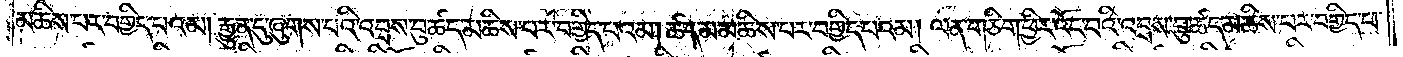མཆིས་པར་བགྱིད་པའམ། རྒྱུན་དུ་ཞུགས་པའི་འབྲས་བུ་ཚད་མཆིས་པར་བགྱིད་པའམ། ཚད་མ་མཆིས་པར་བགྱིད་པའམ། ལན་གཅིག་ཕྱིར་འོང་བའི་འབྲས་བུ་ཚད་མཆིས་པར་བགྱིད་པ་
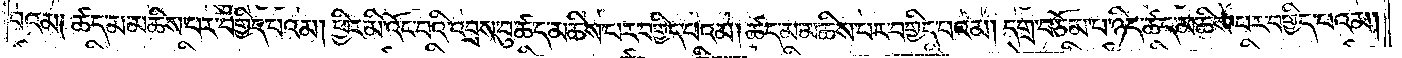པའམ༑ ཚད་མ་མཆིས་པར་བགྱིད་པའམ། ཕྱིར་མི་འོང་བའི་འབྲས་བུ་ཚད་མཆིས་པར་བགྱིད་པའམ། ཚད་མ་མཆིས་པར་བགྱིད་པའམ། དགྲ་བཅོམ་པ་ཉིད་ཚད་མཆིས་པར་བགྱིད་པའམ།
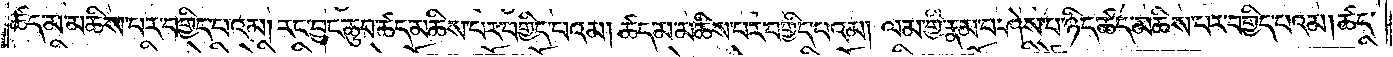ཚད་མ་མཆིས་པར་བགྱིད་པའམ། རང་བྱང་ཆུབ་ཚད་མཆིས་པར་བགྱིད་པའམ། ཚད་མ་མཆིས་པར་བགྱིད་པའམ། ལམ་གྱི་རྣམ་པ་ཤེས་པ་ཉིད་ཚད་མཆིས་པར་བགྱིད་པའམ། ཚད་
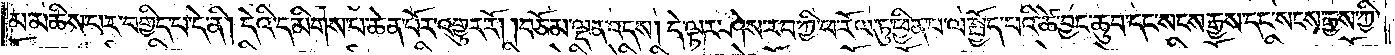མ་མཆིས་པར་བགྱིད་པ་དེ་ནི། དེའི་དམིགས་པ་ཆེན་པོར་འགྱུར་རོ། །བཅོམ་ལྡན་འདས། དེ་ལྟར་ཤེས་རབ་ཀྱི་ཕ་རོལ་ཏུ་ཕྱིན་པ་ལ་སྤྱོད་པའི་ཚེ་བྱང་ཆུབ་དང་སངས་རྒྱས་དང་སངས་རྒྱས་ཀྱི་
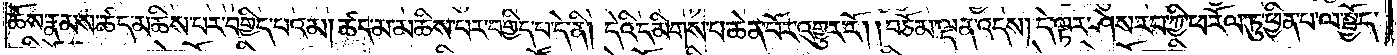ཆོས་རྣམས་ཚད་མཆིས་པར་བགྱིད་པའམ། ཚད་མ་མཆིས་པར་བགྱིད་པ་དེ་ནི། དེའི་དམིགས་པ་ཆེན་པོར་འགྱུར་རོ། །བཅོམ་ལྡན་འདས། དེ་ལྟར་ཤེས་རབ་ཀྱི་ཕ་རོལ་ཏུ་ཕྱིན་པ་ལ་སྤྱོད་
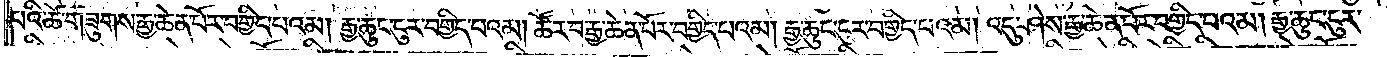པའི་ཚེ་གཟུགས་རྒྱ་ཆེན་པོར་བགྱིད་པའམ། རྒྱ་ཆུང་ངུར་བགྱིད་པའམ། ཚོར་བ་རྒྱ་ཆེན་པོར་བགྱིད་པའམ། རྒྱ་ཆུང་ངུར་བགྱིད་པའམ། འདུ་ཤེས་རྒྱ་ཆེན་པོར་བགྱིད་པའམ། རྒྱ་ཆུང་ངུར་
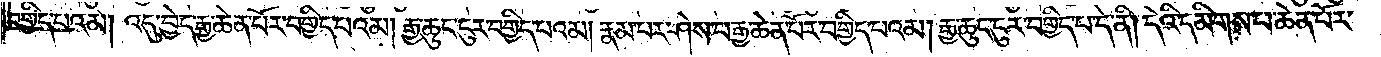བགྱིད་པའམ། འདུ་བྱེད་རྒྱ་ཆེན་པོར་བགྱིད་པའམ། རྒྱ་ཆུང་ངུར་བགྱིད་པའམ། རྣམ་པར་ཤེས་པ་རྒྱ་ཆེན་པོར་བགྱིད་པའམ། རྒྱ་ཆུང་ངུར་བགྱིད་པ་དེ་ནི། དེའི་དམིགས་པ་ཆེན་པོར་
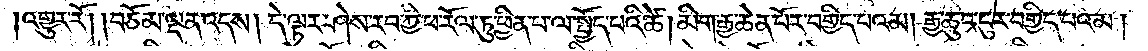འགྱུར་རོ། །བཅོམ་ལྡན་འདས། དེ་ལྟར་ཤེས་རབ་ཀྱི་ཕ་རོལ་ཏུ་ཕྱིན་པ་ལ་སྤྱོད་པའི་ཚེ། མིག་རྒྱ་ཆེན་པོར་བགྱིད་པའམ། རྒྱ་ཆུང་ངུར་བགྱིད་པའམ།
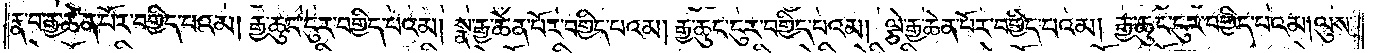རྣ་བ་རྒྱ་ཆེན་པོར་བགྱིད་པའམ། རྒྱ་ཆུང་ངུར་བགྱིད་པའམ་སྣ་རྒྱ་ཆེན་པོར་བགྱིད་པའམ། རྒྱ་ཆུང་ངུར་བགྱིད་པའམ། ལྕེ་རྒྱ་ཆེན་པོར་བགྱིད་པའམ། རྒྱ་ཆུང་ངུར་བགྱིད་པའམ། ལུས་
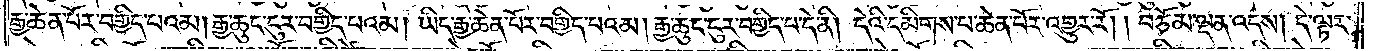རྒྱ་ཆེན་པོར་བགྱིད་པའམ། རྒྱ་ཆུང་ངུར་བགྱིད་པའམ། ཡིད་རྒྱ་ཆེན་པོར་བགྱིད་པའམ། རྒྱ་ཆུང་ངུར་བགྱིད་པ་དེ་ནི། དེའི་དམིགས་པ་ཆེན་པོར་འགྱུར་རོ། །བཅོམ་ལྡན་འདས། དེ་ལྟར་
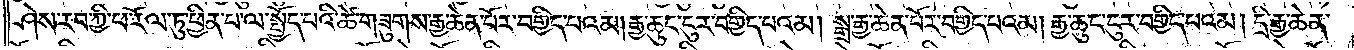ཤེས་རབ་ཀྱི་ཕ་རོལ་ཏུ་ཕྱིན་པ་ལ་སྤྱོད་པའི་ཚེ་གཟུགས་རྒྱ་ཆེན་པོར་བགྱིད་པའམ། རྒྱ་ཆུང་ངུར་བགྱིད་པའམ། སྒྲ་རྒྱ་ཆེན་པོར་བགྱིད་པའམ། རྒྱ་ཆུང་ངུར་བགྱིད་པའམ། དྲི་རྒྱ་ཆེན་
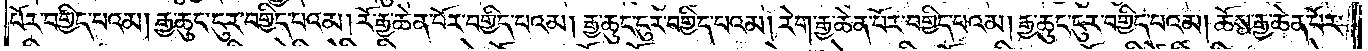པོར་བགྱིད་པའམ། རྒྱ་ཆུང་ངུར་བགྱིད་པའམ། རོ་རྒྱ་ཆེན་པོར་བགྱིད་པའམ། རྒྱ་ཆུང་ངུར་བགྱིད་པའམ། རེག་རྒྱ་ཆེན་པོར་བགྱིད་པའམ། རྒྱ་ཆུང་ངུར་བགྱིད་པའམ། ཆོས་རྒྱ་ཆེན་པོར་
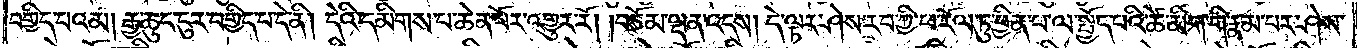བགྱིད་པའམ། རྒྱ་ཆུང་ངུར་བགྱིད་པ་དེ་ནི། དེའི་དམིགས་པ་ཆེན་པོར་འགྱུར་རོ། །བཅོམ་ལྡན་འདས། དེ་ལྟར་ཤེས་རབ་ཀྱི་ཕ་རོལ་ཏུ་ཕྱིན་པ་ལ་སྤྱོད་པའི་ཚེ་མིག་གི་རྣམ་པར་ཤེས་
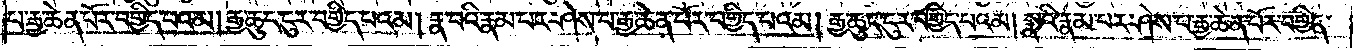པ་རྒྱ་ཆེན་པོར་བགྱིད་པའམ། རྒྱ་ཆུང་ངུར་བགྱིད་པའམ། རྣ་བའི་རྣམ་པར་ཤེས་པ་རྒྱ་ཆེན་པོར་བགྱིད་པའམ། རྒྱ་ཆུང་ངུར་བགྱིད་པའམ། སྣའི་རྣམ་པར་ཤེས་པ་རྒྱ་ཆེན་པོར་བགྱིད་
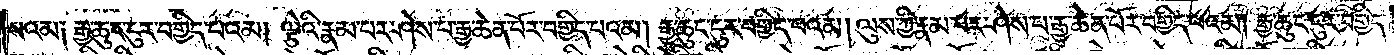པའམ༑ རྒྱ་ཆུང་ངུར་བགྱིད་པའམ། ལྕེའི་རྣམ་པར་ཤེས་པ་རྒྱ་ཆེན་པོར་བགྱིད་པའམ། རྒྱ་ཆུང་ངུར་བགྱིད་པའམ། ལུས་ཀྱི་རྣམ་པར་ཤེས་པ་རྒྱ་ཆེན་པོར་བགྱིད་པའམ། རྒྱ་ཆུང་ངུར་བགྱིད་
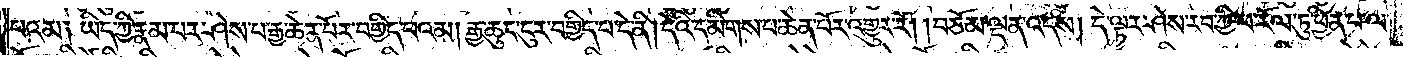པའམ༑ ཡིད་ཀྱི་རྣམ་པར་ཤེས་པ་རྒྱ་ཆེན་པོར་བགྱིད་པའམ། རྒྱ་ཆུང་ངུར་བགྱིད་པ་དེ་ནི། དེའི་དམིགས་པ་ཆེན་པོར་འགྱུར་རོ། །བཅོམ་ལྡན་འདས། དེ་ལྟར་ཤེས་རབ་ཀྱི་ཕ་རོལ་ཏུ་ཕྱིན་པ་ལ་
